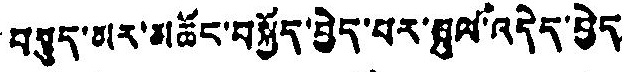བསུད་མར་མཆོང་བསྐྱོད་བྱེད་པར་སྤུལ་འདེད་བྱེད་
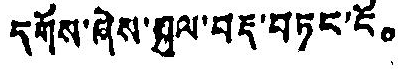དགོས་ཞེས་སྐུལ་བརྡ་བཏང་ངོ。
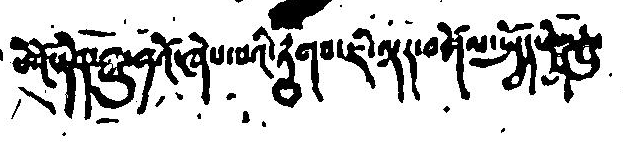པེའོ་ཏེན་ཧྥུ་ཧའོ་ཞེས་པའི་རྟགས་ཇི་ལྟར་བཀོལ་སྤྱོད་བྱེད་
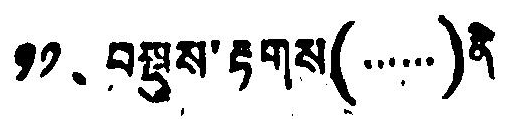༡༡、 བསྡུས་རྟགས（……）ནི་
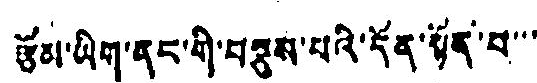རྩོམ་ཡིག་ནང་གི་བསྡུས་པའི་དོན་སྟོན་པ་་་་
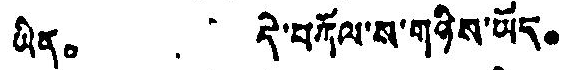ཡིན。 དེ་བཀོལ་ས་གཉིས་ཡོད。
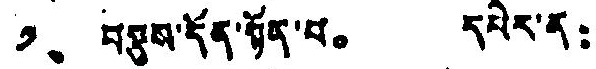༡、 བསྡུས་དོན་སྟོན་པ。 དཔེར་ན：
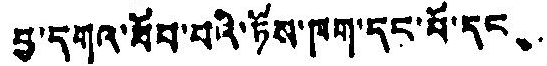བྱ་དགའ་ཐོབ་པའི་ཏོས་ཁག་དང་པོ་དང、
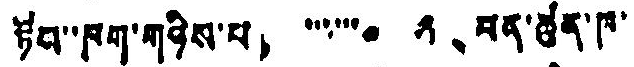ཏོབ་ཁག་གཉིས་པ，……。 ༢、 ཕན་ཚུན་ཁ་
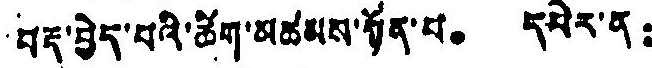བརྡ་བྱེད་པའི་ཚིག་མཚམས་སྟོན་པ。 དཔེར་ན：
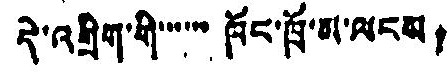དེ་འགྲིག་གི་་་་་་ཁོང་ཁྲོ་མ་ལངས！
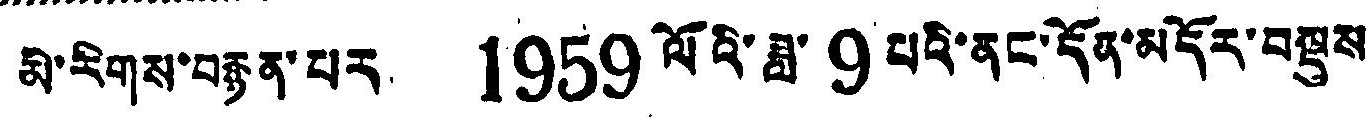མི་རིགས་བརྙན་པར 1959 ལོའི་ཟླ་ 9 པའི་ནང་དོན་མདོར་བསྡུས
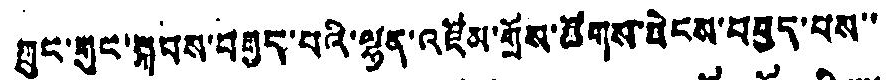ཀྲུང་གུང་སྐབས་བརྒྱད་པའི་ལྷན་འཛོམ་གྲོས་ཚོགས་ཐེངས་བབྱད་པས་་
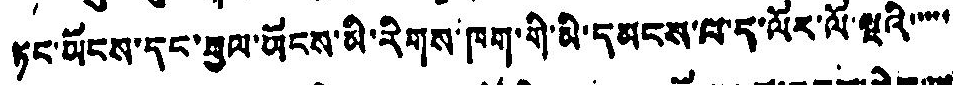ཏང་ཡོངས་དང་རྱལ་ཡོངས་མི་རིགས་ཁག་གི་མི་དམངས་ལ་ད་ལོར་ལོ་ལྔའི་་་་་
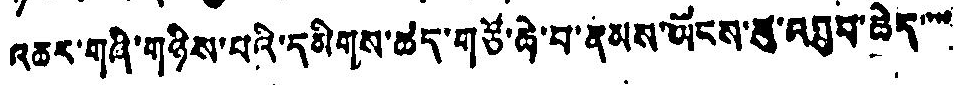འཆར་གཞི་གཉིས་པའི་དམིགས་ཚད་གཙོ་ཆེ་བ་རྣམས་ཡོངས་སུ་འཐབ་ཆེད་་་་
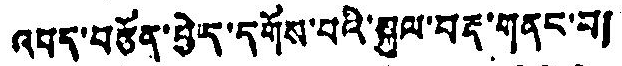འབད་བརྩོན་བྱེད་དགོས་པའི་སྐུལ་བརྡ་གནང་བ།
